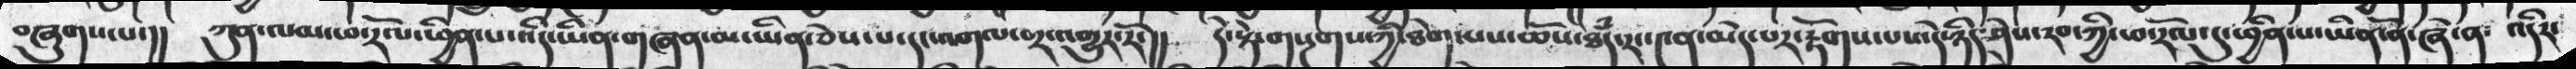བཞུགས་པ་།།  ཀུན་ལམ་ཕ་རོལ་ཕྱིན་པ་འདི་ཡིན་གཞན་མ་ཡིན་ཅེས་པ་དང་འགལ་པར་འགྱུར་རོ་།།  དེ་སྟེ་གསྔགས་ཀྱི་ཐེག་པས་ཆོས་ཐཾད་རང་༤ན་མེད་པར་རྟོགས་པ་འདེ་ཉིད་ཤེས་རབ་ཀྱི་ཕ་རོལ་དུ་ཕྱིན་པ་ཡིན་ནོ་ཞེ་ན་ འདིར་
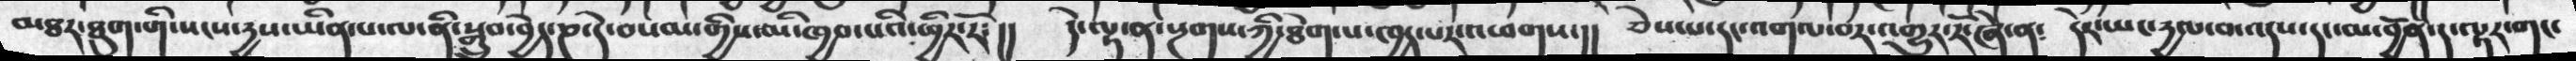མཐར་ཐུག་གི་སངས་དྱས་ཡིན་པ་ལ་ནི་སྒྲུབ་བྱེད་ཎ་དེ་བསམ་གྱིས་མི་ཁྱབ་པའི་ཕྱིར་རོ༴།།  དེ་ལྟ་ན་སྔགས་ཀྱི་ཐེག་པ་ཁྱད་པར་འཕགས་།།  ཅེས་པ་དང་འགལ་བར་འགྱུར་རོ་ཞེ་ན༴  དེར་ཡང་དྱལ་བ་འདས་དང་མ་བྱོབ་ད་ལྟར་གང་
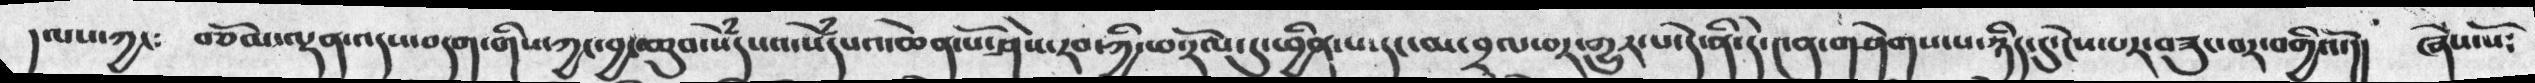དལས་ཀྱང༴  བཅོམ་ལྡན་འདས་བདག་གི་ཀྱང་བྱང་ཆུབ་སེཾདཔའ་སེཾདཔའ་ཆེན་པོ་ཤེས་རབ་ཀྱི་ཕ་རོལ་དུ་ཕྱིན་པ་དང་མ་བྲལ་བར་གྱུར་པ་དེ་ནི་དེ་༤ན་གཤེགས་པ་ཉིད་དུ་ངེས་པར་བཟུང་བར་བགྱིའོ།།  ཞེས་སོ༴
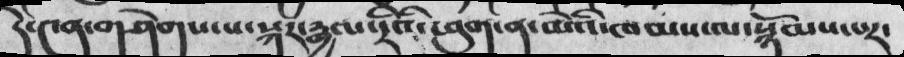དེ་༤ན་གཤེགས་པ་སྐར་རྒྱལ་རིའི་ཕུག་ན་མེའི་ཁམས་ལ་སྙོམས་པར་
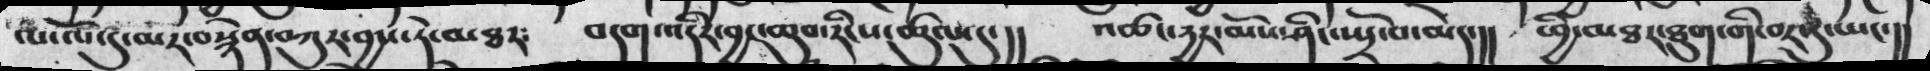ལ་ལོ་དུ་མར་བསྙེན་བཀུར་བྱས་ཏེ་མཐར༴  བདག་འདིར་བྱང་ཆུབ་རིང་པ་ཚུལ་དུ་།།  འཚང་དྱར་མོས་ཤིང་སྤྲོ་བ་མེད་།།  ཕྱི་མཐར་ཐུག་གི་བར་དུ་ཡང་།།
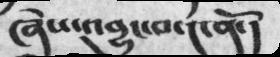ཞེས་འབྱུང་བ་༤ནོ་།
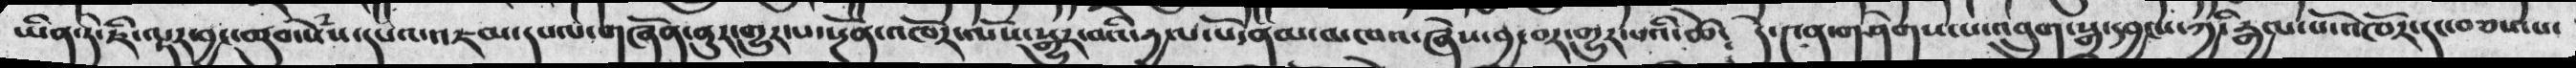ཡིན་དེ་ཇི་ལྟར་བྱང་ཆུབ་སེཾས་དཔའ་འཇམ་དཔལ་གཞོན་ནུར་གྲུར་པ་སྔོན་འཁོར་ལོས་སྒྱུར་བའི་དྱལ་པོ་ནམ་མཁའ་ཞེས་བྱ་བར་གྱུར་པའི་ཚེ༴  དེ་༤ན་གཤེགས་པ་འབྲུག་སྒྲ་དབྱངས་ཀྱི་རྒྱལ་པོ་འཁོར་དང་བཅས་པ་
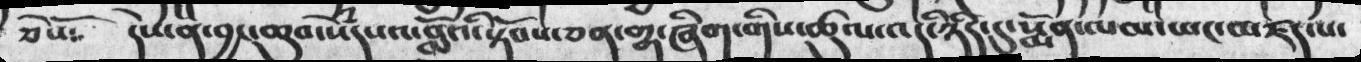ཅེསོ༴  དེས་ན་བྱང་ཆུབ་སེཾདཔའ་བློའི་སྟོབས་ཅན་གྷ་ཞིག་གིས་ཚུལ་འདི་ཉིད་དུ་སྨོན་ལམ་ཡང་མཛད་པ་
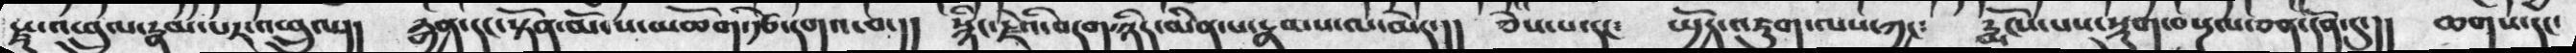རྫུ་འཕྲུལ་ཏྣམ་པར་འཕྲུལ།།  རྒྱན་དང་སྟོན་མོངས་མཆོག་རྩི་དགའ་བ་།།  སྙི་རྗེའི་བདག་ཉིད་མིན་པ་རརྣམས་ལ་མེད་།།   ཅེས་པ་དང་   སྤྱོད་འཇུག་ལས་ཀྱང༴    རྨོལ་པས་སྡུག་བསྔལ་ཅན་དོན་དུ་།།    ཆགས་དང་
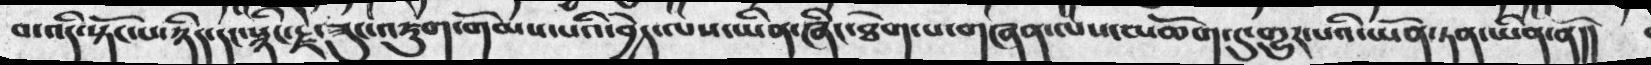བ་འདི་སྟོང་པ་ཉིད་དང་སྙིང་རྗེ་ཟུང་འཇུག་གོམས་པའི་བྱེད་ལས་ཡིན་ཞིང་ཐེག་པ་གཞན་ལས་མཆོག་དུ་གྱུར་པའི་ཡོན་ཏན་ཡིན་ནོ།།
